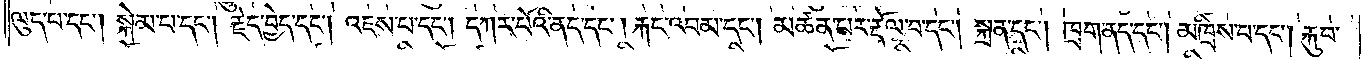ལུད་པ་དང༌། སྐེམ་པ་དང༌། རྗེད་བྱེད་དང༌། འཇས་པ་དང༌། དཀར་པོའི་ནད་དང༌། རྐང་འབམ་དང༌། མཚན་པར་རྡོལ་བ་དང༌། སྐྲན་དང༌། ཁྲག་ནད་དང༌། མཁྲིས་པ་དང༌། རྐུབ་
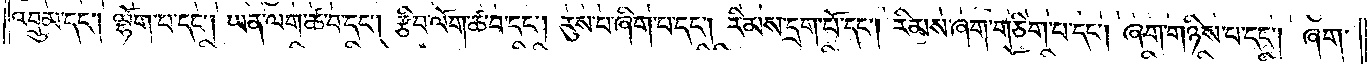འབྲུམ་དང༌། ལྷོག་པ་དང༌། ཡན་ལག་ཚ་བ་དང༌། རྩིབ་ལོག་ཚ་བ་དང༌། རུས་པ་ཞིག་པ་དང༌། རིམས་དྲག་པོ་དང༌། རིམས་ཞག་གཅིག་པ་དང༌། ཞག་གཉིས་པ་དང༌། ཞག་
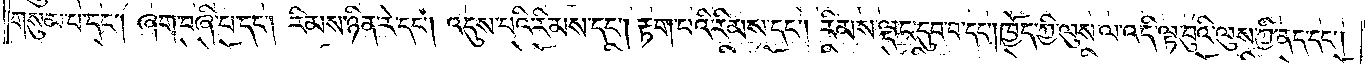གསུམ་པ་དང༌། ཞག་བཞི་པ་དང༌། རིམས་ཉིན་རེ་དང༌། འདུས་པའི་རིམས་དང༌། རྟག་པའི་རིམས་དང༌། རིམས་ལྡང་དུབ་བ་དང༌། ཁྱོད་ཀྱི་ལུས་ལ་འདི་ལྟ་བུའི་ལུས་ཀྱི་ནད་དང༌།
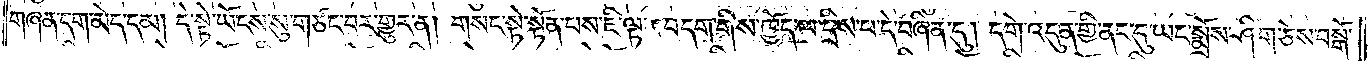གཞན་དག་མེད་དམ། དེ་སྟེ་ཡོངས་སུ་གཙང་བར་གྱུར་ན། གསང་སྟེ་སྟོན་པས་ཇི་ལྟར་བདག་གིས་ཁྱོད་ལ་དྲིས་པ་དེ་བཞིན་དུ། དགེ་འདུན་གྱི་ནང་དུ་ཡང་སྨྲོས་ཤིག་ཅེས་བསྒོ་
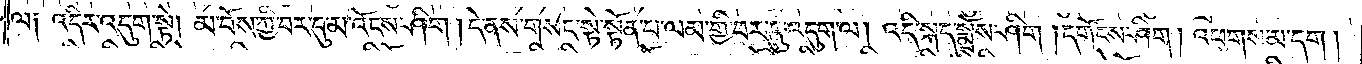ལ༑ འདིར་འདུག་སྟེ། མ་བོས་ཀྱི་བར་དུ་མ་འོངས་ཤིག །དེ་ནས་གསང་སྟེ་སྟོན་པ་ལམ་གྱི་བར་དུ་འདུག་ལ། འདི་སྐད་སྨྲོས་ཤིག །དགོངས་ཤིག །འཕགས་མ་དག།
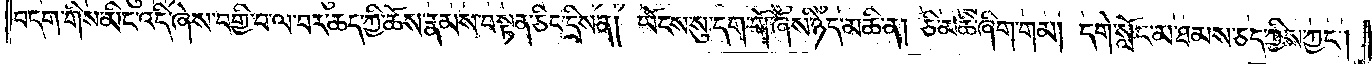བདག་གིས་མིང་འདི་ཞེས་བགྱི་བ་ལ་བར་ཆད་ཀྱི་ཆོས་རྣམས་བསྟན་ཅིང་དྲིས་ན། ཡོངས་སུ་དག་གོ་ཞེས་ཉིད་མཆི་ན། ཅི་མཆི་ཞིག་གམ། དགེ་སློང་མ་ཐམས་ཅད་ཀྱིས་ཀྱང༌།
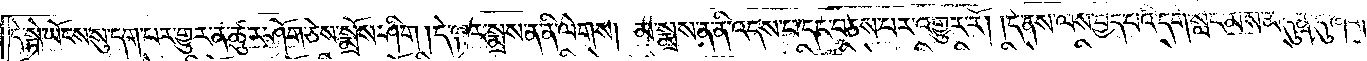དེ་སྟེ་ཡོངས་སུ་དག་པར་གྱུར་ན་ཚུར་ཤོག་ཅེས་སྨྲོས་ཤིག །དེ་ལྟར་སྨྲས་ན་ནི་ལེགས། མ་སྨྲས་ན་ནི་འདས་པ་དང་བཅས་པར་འགྱུར་རོ། །དེ་ནས་ལས་བྱེད་པའི་དགེ་སློང་མས་མདུན་དུ་ཞོག་ལ་
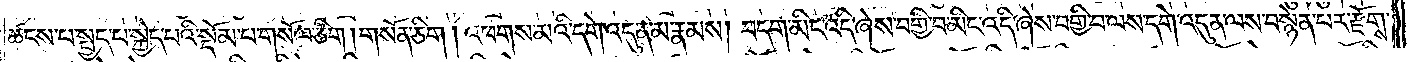ཚངས་པ་སྤྱད་པ་སྐྱེད་པའི་སྡོམ་པ་གསོལ་ཅིག །གསོན་ཅིག །འཕགས་མའི་དགེ་འདུན་མ་རྣམས། བདག་མིང་འདི་ཞེས་བགྱི་བ་མིང་འདི་ཞེས་བགྱི་བ་ལས་དགེ་འདུན་ལས་བསྙེན་པར་རྫོགས་
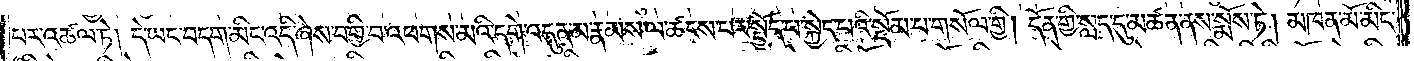པར་འཚལ་ཏེ། དེ་ཡང་བདག་མིང་འདི་ཞེས་བགྱི་བ་འཕགས་མའི་དགེ་འདུན་མ་རྣམས་ལ་ཚངས་པར་སྤྱོད་པ་སྐྱེད་པའི་སྡོམ་པ་གསོལ་གྱི། དོན་གྱི་སླད་དུ་མཚན་ནས་སྨོས་ཏེ། མཁན་མོ་མིང་
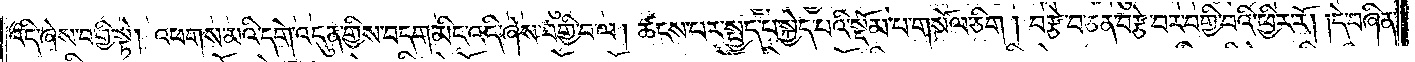འདི་ཞེས་བགྱི་སྟེ། འཕགས་མའི་དགེ་འདུན་གྱིས་བདག་མིང་འདི་ཞེས་བགྱི་བ་ལ། ཚངས་པར་སྤྱད་པ་སྐྱེད་པའི་སྡོམ་པ་གསོལ་ཅིག །བརྩེ་བ་ཅན་བརྩེ་བར་བགྱི་བའི་ཕྱིར་རོ། །དེ་བཞིན་
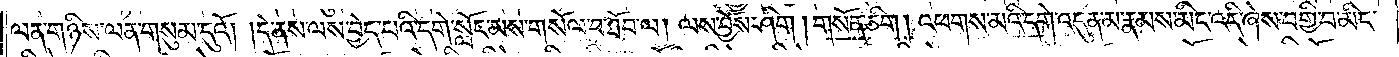ལན་གཉིས་ལན་གསུམ་དུའོ། །དེ་ནས་ལས་བྱེད་པའི་དགེ་སློང་མས་གསོལ་བ་ཐོབ་ལ། ལས་བྱོས་ཤིག །གསོན་ཅིག །འཕགས་མའི་དགེ་འདུན་མ་རྣམས་མིང་འདི་ཞེས་བགྱི་བ་མིང་
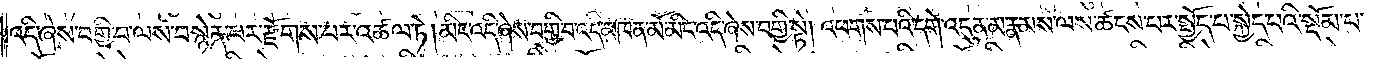འདི་ཞེས་བགྱི་བ་ལས་བསྙེན་པར་རྫོགས་པར་འཚལ་ཏེ། མིང་འདི་ཞེས་བགྱི་བ་འདི་མཁན་མོ་མིང་འདི་ཞེས་བགྱི་སྟེ། འཕགས་པའི་དགེ་འདུན་མ་རྣམས་ལས་ཚངས་པར་སྤྱོད་པ་སྐྱེད་པའི་སྡོམ་པ་
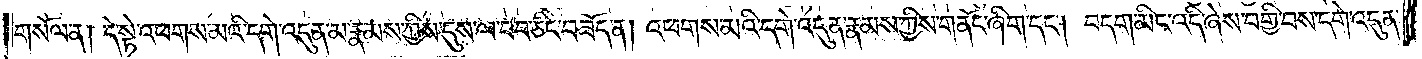གསོལ་ན། དེ་སྟེ་འཕགས་མའི་དགེ་འདུན་མ་རྣམས་ཀྱིས་དུས་ལ་བབ་ཅིང་བཟོད་ན། འཕགས་མའི་དགེ་འདུན་རྣམས་ཀྱིས་གནོང་ཞིག་དང༌། བདག་མིང་འདི་ཞེས་བགྱི་བས་དགེ་འདུན་
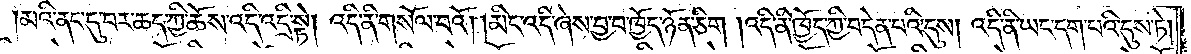མའི་ནང་དུ་བར་ཆད་ཀྱི་ཆོས་འདི་འདྲི་སྟེ། འདི་ནི་གསོལ་བའོ། །མིང་འདི་ཞེས་བྱ་བ་ཁྱོད་ཉོན་ཅིག །འདི་ནི་ཁྱོད་ཀྱི་བདེན་པའི་དུས། འདི་ནི་ཡང་དག་པའི་དུས་ཏེ།
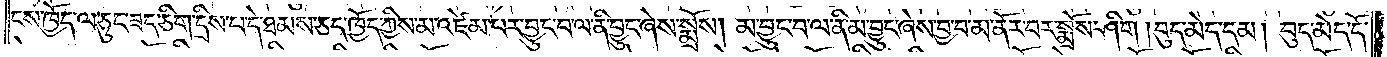ངས་ཁྱོད་ལ་ཅུང་ཟད་ཅིག་དྲིས་པ་དེ་ཐམས་ཅད་ཁྱོད་ཀྱིས་མ་འཛེམ་པར་བྱུང་བ་ལ་ནི་བྱུང་ཞེས་སྨྲོས། མ་བྱུང་བ་ལ་ནི་མ་བྱུང་ཞེས་བྱ་བ་མ་ནོར་བར་སྨྲོས་ཤིག །བུད་མེད་དམ། བུད་མེད་དོ་
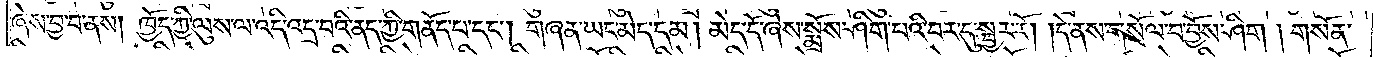ཞེས་བྱ་བ་ནས། ཁྱོད་ཀྱི་ལུས་ལ་འདི་འདྲ་བའི་ནད་ཀྱི་གནོད་པ་དང༌། གཞན་ཡང་མེད་དམ། མེད་དོ་ཞེས་སྨྲོས་ཤིག་པའི་བར་དུ་སྦྱར་རོ། །དེ་ནས་གསོལ་བ་བྱོས་ཤིག །གསོན་
